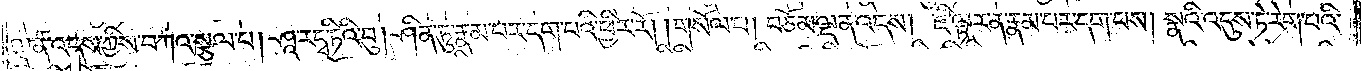ལྡན་འདས་ཀྱིས་བཀའ་སྩལ་པ། ཤཱ་རདྭ་ཏིའི་བུ། ཤིན་ཏུ་རྣམ་པར་དག་པའི་ཕྱིར་རོ། །གསོལ་པ། བཅོམ་ལྡན་འདས། ཇི་ལྟར་ན་རྣམ་པར་དག་པས། སྣའི་འདུས་ཏེ་རེག་པའི་
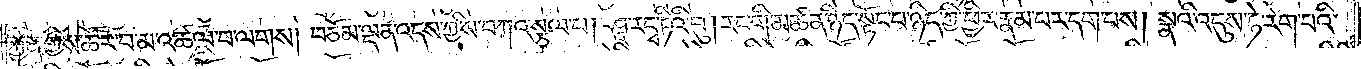རྐྱེན་གྱིས་ཚོར་བ་མ་འཚལ་བ་ལགས། བཅོམ་ལྡན་འདས་ཀྱིས་བཀའ་སྩལ་པ། ཤཱ་རདྭ་ཏིའི་བུ། རང་གི་མཚན་ཉིད་སྟོང་པ་ཉིད་ཀྱི་ཕྱིར་རྣམ་པར་དག་པས། སྣའི་འདུས་ཏེ་རེག་པའི་
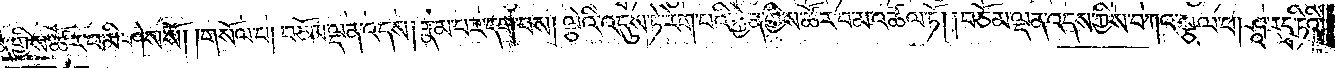རྐྱེན་གྱིས་ཚོར་བ་མི་ཤེས་སོ། །གསོལ་པ། བཅོམ་ལྡན་འདས། རྣམ་པར་དག་པས། ལྕེའི་འདུས་ཏེ་རེག་པའི་རྐྱེན་གྱིས་ཚོར་བ་མ་འཚལ་ཏོ། །བཅོམ་ལྡན་འདས་ཀྱིས་བཀའ་སྩལ་པ། ཤཱ་རདྭ་ཏིའི་
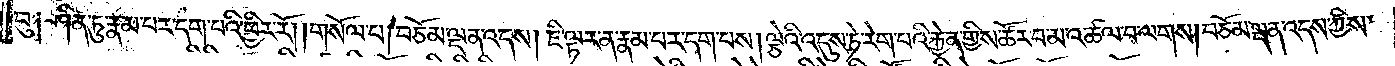བུ༑ ཤིན་ཏུ་རྣམ་པར་དག་པའི་ཕྱིར་རོ། །གསོལ་པ། བཅོམ་ལྡན་འདས། ཇི་ལྟར་ན་རྣམ་པར་དག་པས། ལྕེའི་འདུས་ཏེ་རེག་པའི་རྐྱེན་གྱིས་ཚོར་བ་མ་འཚལ་བ་ལགས། བཅོམ་ལྡན་འདས་ཀྱིས་
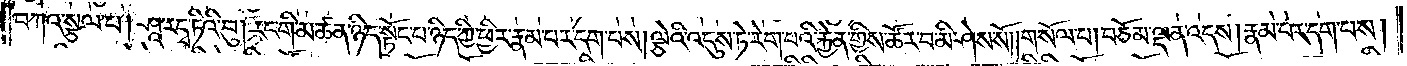བཀའ་སྩལ་པ། ཤཱ་ར་དྭ་ཏིའི་བུ། རང་གི་མཚན་ཉིད་སྟོང་པ་ཉིད་ཀྱི་ཕྱིར་རྣམ་པར་དག་པས། ལྕེའི་འདུས་ཏེ་རེག་པའི་རྐྱེན་གྱིས་ཚོར་བ་མི་ཤེས་སོ། །གསོལ་པ། བཅོམ་ལྡན་འདས། རྣམ་པར་དག་པས།
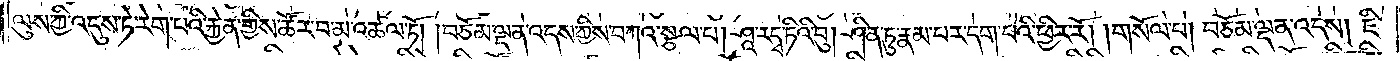ལུས་ཀྱི་འདུས་ཏེ་རེག་པའི་རྐྱེན་གྱིས་ཚོར་བ་མ་འཚལ་ཏོ། །བཅོམ་ལྡན་འདས་ཀྱིས་བཀའ་སྩལ་པ། ཤཱ་ར་དྭ་ཏིའི་བུ། ཤིན་ཏུ་རྣམ་པར་དག་པའི་ཕྱིར་རོ། །གསོལ་པ། བཅོམ་ལྡན་འདས། ཇི་
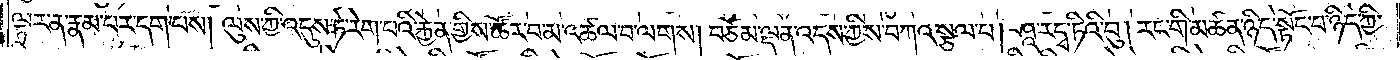ལྟར་ན་རྣམ་པར་དག་པས། ལུས་ཀྱི་འདུས་ཏེ་རེག་པའི་རྐྱེན་གྱིས་ཚོར་བ་མ་འཚལ་བ་ལགས། བཅོམ་ལྡན་འདས་ཀྱིས་བཀའ་སྩལ་པ། ཤཱ་ར་དྭ་ཏིའི་བུ། རང་གི་མཚན་ཉིད་སྟོང་པ་ཉིད་ཀྱི་
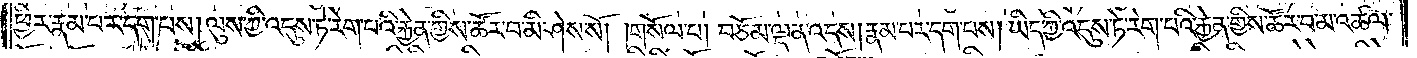ཕྱིར་རྣམ་པར་དག་པས། ལུས་ཀྱི་འདུས་ཏེ་རེག་པའི་རྐྱེན་གྱིས་ཚོར་བ་མི་ཤེས་སོ། །གསོལ་པ། བཅོམ་ལྡན་འདས། རྣམ་པར་དག་པས། ཡིད་ཀྱི་འདུས་ཏེ་རེག་པའི་རྐྱེན་གྱིས་ཚོར་བ་མ་འཚལ་
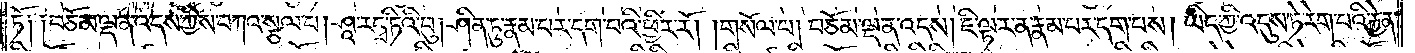ཏོ༑ ༑བཅོམ་ལྡན་འདས་ཀྱིས་བཀའ་སྩལ་པ། ཤཱ་ར་དྭ་ཏིའི་བུ། ཤིན་ཏུ་རྣམ་པར་དག་པའི་ཕྱིར་རོ། །གསོལ་པ། བཅོམ་ལྡན་འདས། ཇི་ལྟར་ན་རྣམ་པར་དག་པས། ཡིད་ཀྱི་འདུས་ཏེ་རེག་པའི་རྐྱེན་
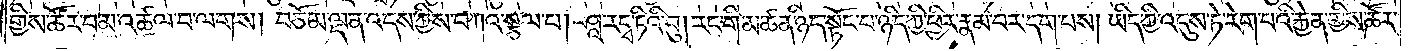གྱིས་ཚོར་བ་མ་འཚལ་བ་ལགས། བཅོམ་ལྡན་འདས་ཀྱིས་བཀའ་སྩལ་པ། ཤཱ་ར་དྭ་ཏིའི་བུ། རང་གི་མཚན་ཉིད་སྟོང་པ་ཉིད་ཀྱི་ཕྱིར་རྣམ་པར་དག་པས། ཡིད་ཀྱི་འདུས་ཏེ་རེག་པའི་རྐྱེན་གྱིས་ཚོར་
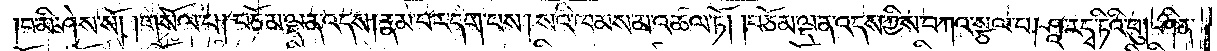བ་མི་ཤེས་སོ། །གསོལ་པ། བཅོམ་ལྡན་འདས། རྣམ་པར་དག་པས། སའི་ཁམས་མ་འཚལ་ཏོ། །བཅོམ་ལྡན་འདས་ཀྱིས་བཀའ་སྩལ་པ། ཤཱ་ར་དྭ་ཏིའི་བུ། ཤིན་
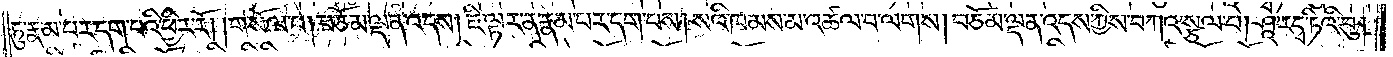ཏུ་རྣམ་པར་དག་པའི་ཕྱིར་རོ། །གསོལ་པ། བཅོམ་ལྡན་འདས། ཇི་ལྟར་ན་རྣམ་པར་དག་པས། སའི་ཁམས་མ་འཚལ་བ་ལགས། བཅོམ་ལྡན་འདས་ཀྱིས་བཀའ་སྩལ་པ། ཤཱ་ར་དྭ་ཏིའི་བུ།
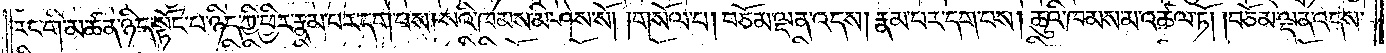རང་གི་མཚན་ཉིད་སྟོང་པ་ཉིད་ཀྱི་ཕྱིར་རྣམ་པར་དག་པས། སའི་ཁམས་མི་ཤེས་སོ། །གསོལ་པ། བཅོམ་ལྡན་འདས། རྣམ་པར་དག་པས། ཆུའི་ཁམས་མ་འཚལ་ཏོ། །བཅོམ་ལྡན་འདས་
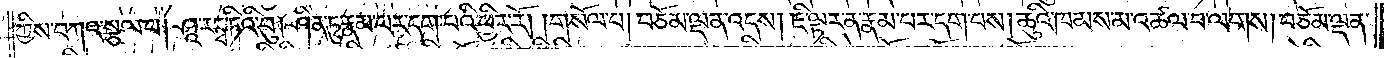ཀྱིས་བཀའ་སྩལ་པ། ཤཱ་ར་དྭ་ཏིའི་བུ། ཤིན་ཏུ་རྣམ་པར་དག་པའི་ཕྱིར་རོ། །གསོལ་པ། བཅོམ་ལྡན་འདས། ཇི་ལྟར་ན་རྣམ་པར་དག་པས། ཆུའི་ཁམས་མ་འཚལ་བ་ལགས། བཅོམ་ལྡན་
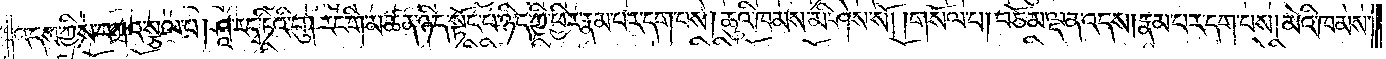འདས་ཀྱིས་བཀའ་སྩལ་པ། ཤཱ་ར་དྭ་ཏིའི་བུ། རང་གི་མཚན་ཉིད་སྟོང་པ་ཉིད་ཀྱི་ཕྱིར་རྣམ་པར་དག་པས། ཆུའི་ཁམས་མི་ཤེས་སོ། །གསོལ་པ། བཅོམ་ལྡན་འདས། རྣམ་པར་དག་པས། མེའི་ཁམས་
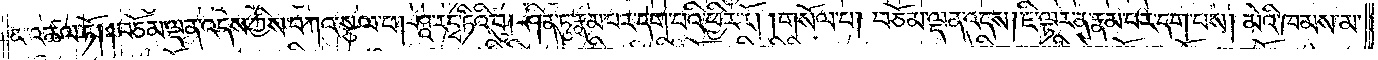མ་འཚལ་ཏོ། །བཅོམ་ལྡན་འདས་ཀྱིས་བཀའ་སྩལ་པ། ཤཱ་ར་དྭ་ཏིའི་བུ། ཤིན་ཏུ་རྣམ་པར་དག་པའི་ཕྱིར་རོ། །གསོལ་པ། བཅོམ་ལྡན་འདས། ཇི་ལྟར་ན་རྣམ་པར་དག་པས། མེའི་ཁམས་མ་
